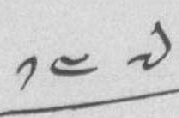༡༤༧
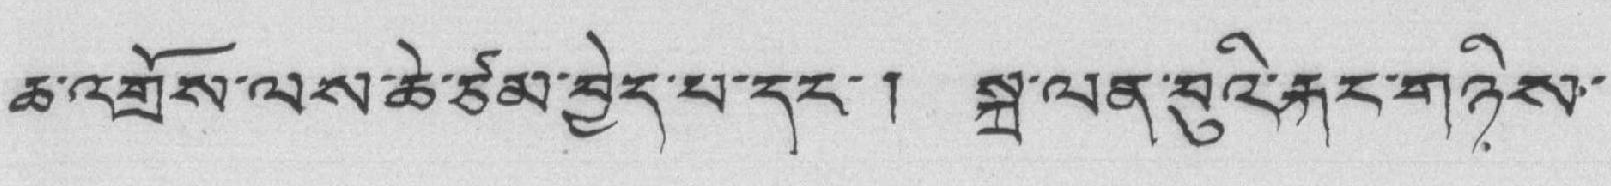ཆ་འགྲོས་ལས་ཆེ་ཙམ་བྱེད་པ་དང་། སྐྲ་ལན་བུའི་རྐང་གཉིས་
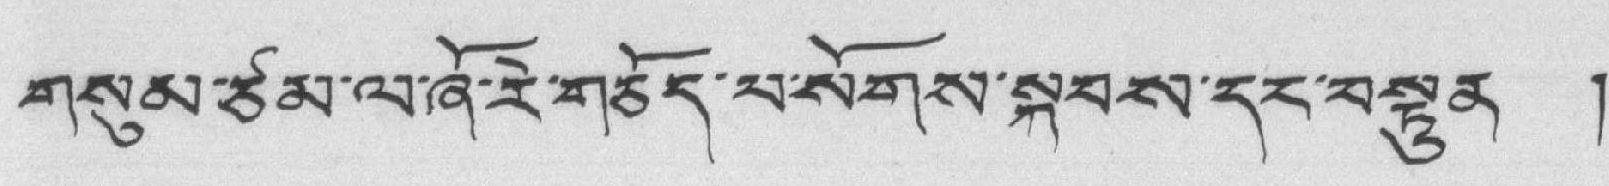གསུམ་ཙམ་ལ་ཞོ་རེ་གཅོད་པ་སོགས་སྐབས་དང་བསྟུན །
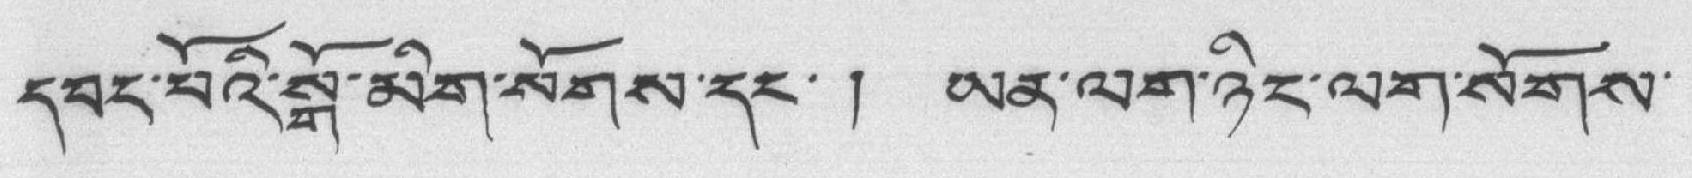དབང་པོའི་སྒོ་མིག་སོགས་དང་ ། ཡན་ལག་ཉིང་ལག་སོགས་
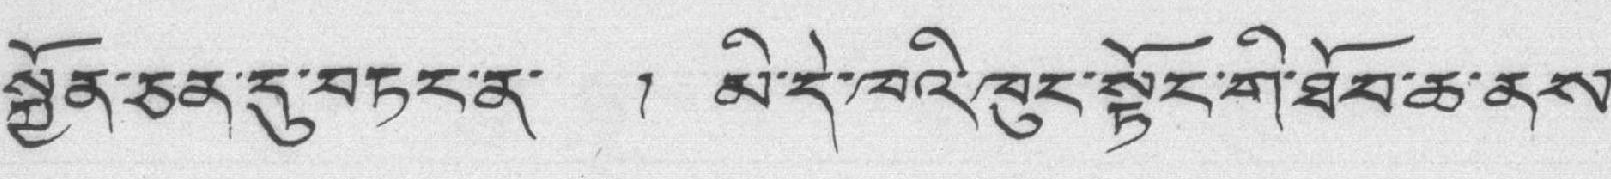སྐྱོན་ཅན་དུ་བཏང་ན་ ། མི་དེ་ཁའི་ཁུང་སྟོང་གི་ཐོབ་ཆ་ནས་
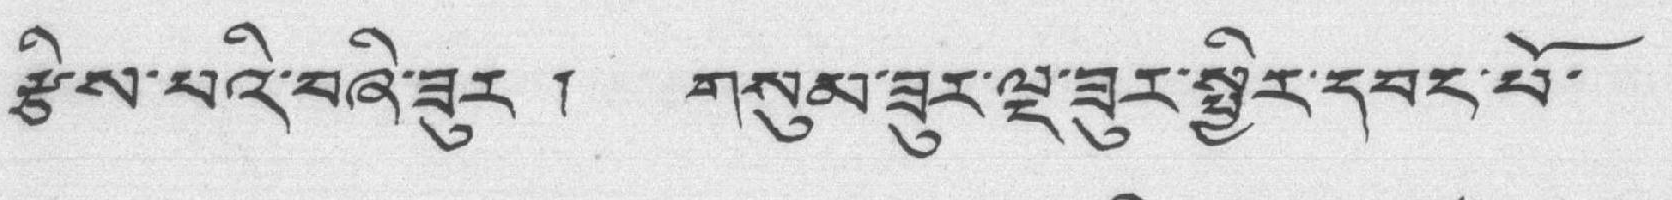རྩིས་པའི་བཞི་ཟུར ། གསུམ་ཟུར་ལྔ་ཟུར་སྤྱིར་དབང་པོ་
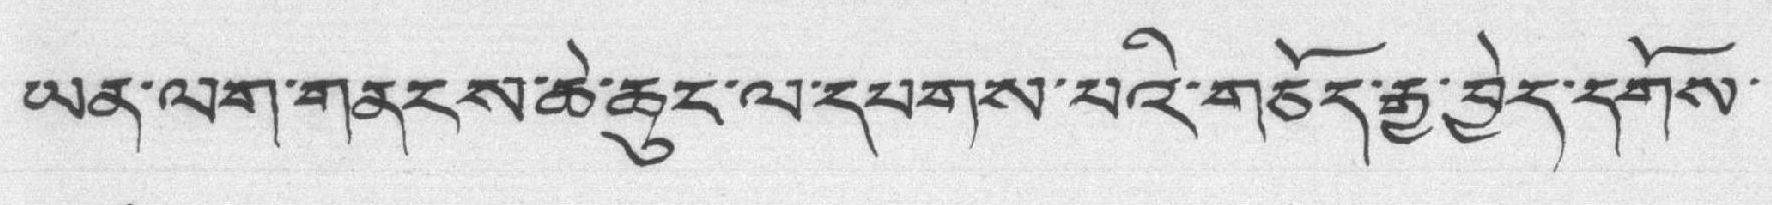ཡན་ལག་གནངས་ཆེ་ཆུང་ལ་དཔགས་པའི་གཅོད་རྒྱུ་བྱེད་དགོས་
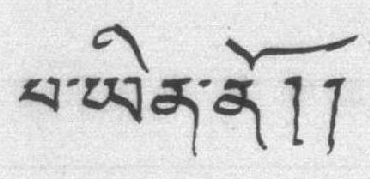པ་ཡིན་ནོ།།
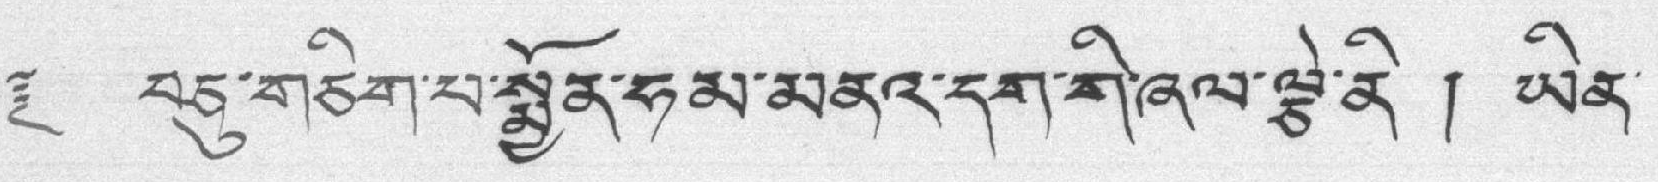༈ བཅུ་གཅིག་པ་སྨྱོན་ཧམ་མནའ་དག་གི་ཞལ་ལྕེ་ནི ། ཡིན་
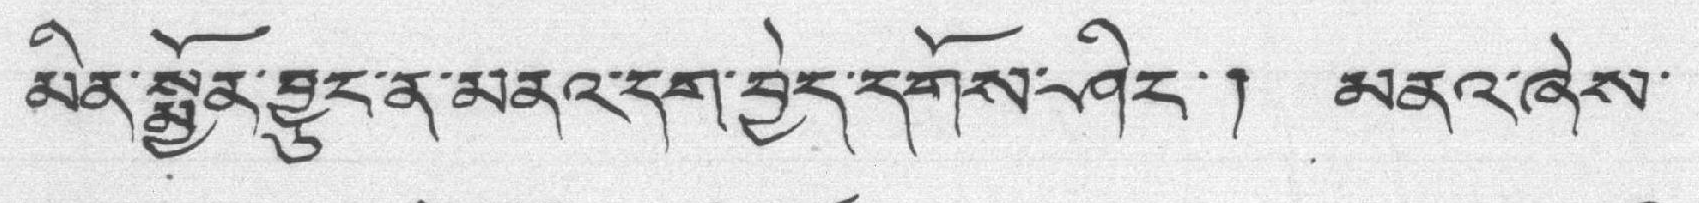མིན་སྨྱོན་བྱུང་ན་མནའ་དག་བྱེད་དགོས་ཤིང་། མནའ་ཞེས་
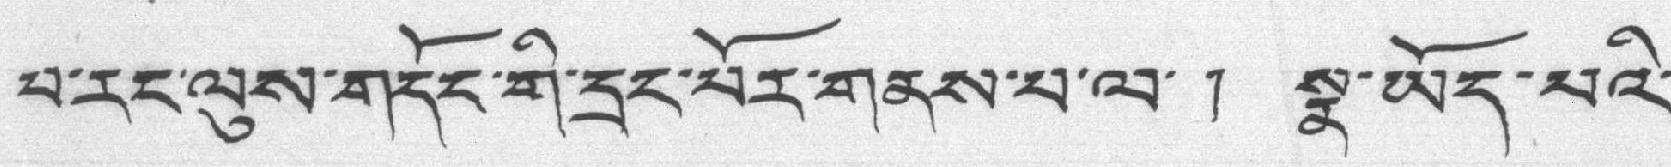པ་རང་ལུས་གདོང་གི་དྲང་པོར་གནས་པ་ལ་ ། སྣ་ཡོད་པའི་
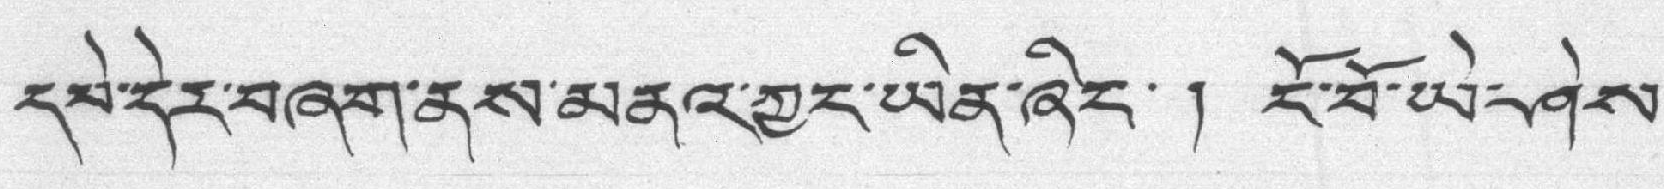དཔེ་དེར་བཞག་ནས་མནའ་ཀྱང་ཡིན་ཞིང་ ། ངོ་བོ་ཡེ་ཤེས་
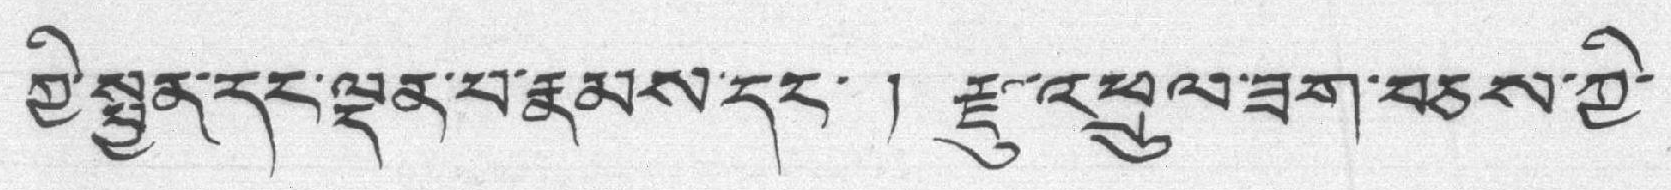ཀྱི་སྤྱན་དང་ལྡན་པ་རྣམས་དང་ ། རྫུ་འཕྲུལ་ཟག་བཅས་ཀྱི་
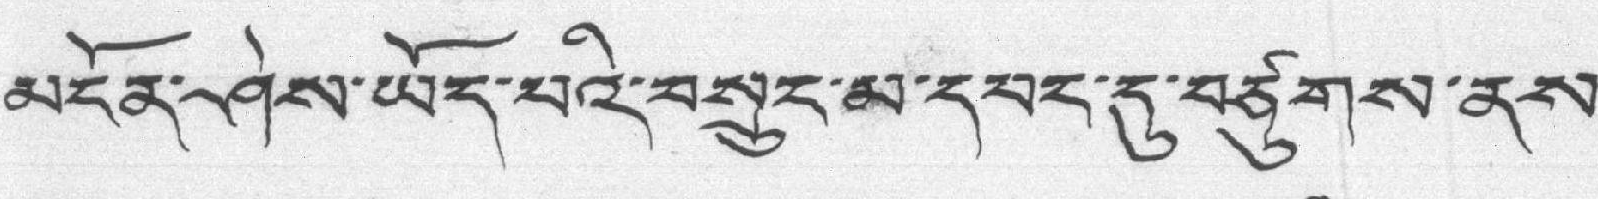མངོན་ཤེས་ཡོད་པའི་བསྲུང་མ་དཔང་དུ་བཙུགས་ནས་
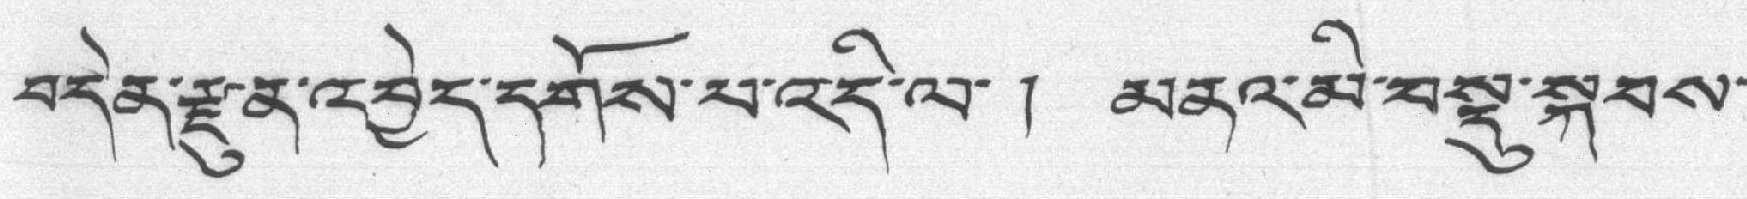བདེན་རྫུན་འབྱེད་དགོས་པ་འདི་ལ་ ། མནའ་མི་བསྡུ་སྐབས་
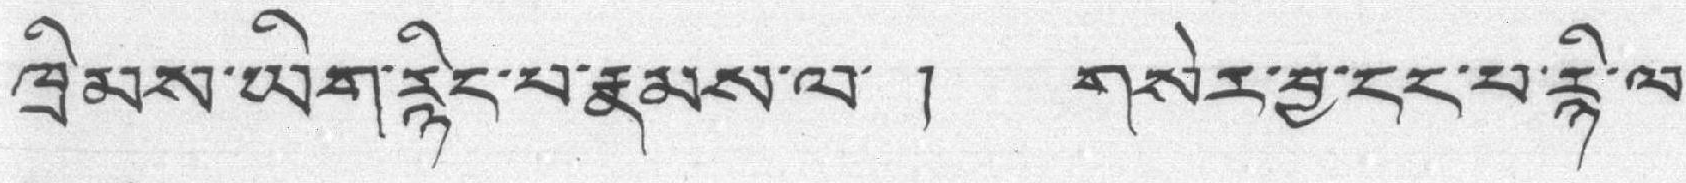ཁྲིམས་ཡིག་རྙིང་པ་རྣམས་ལ་ ། གསེར་བྱ་ངང་པ་རྙི་ལ་
